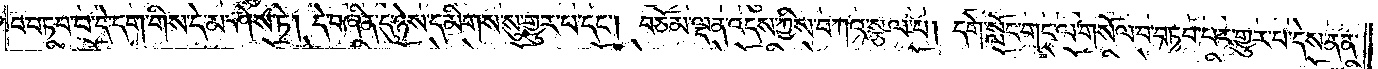བ་བཏབ་པ་དེ་དག་གིས་དེ་མ་ཤེས་ཏེ། དེ་བཞིན་དུ་ཉེས་དམིགས་སུ་གྱུར་པ་དང༌། བཅོམ་ལྡན་འདས་ཀྱིས་བཀའ་སྩལ་པ། དགེ་སློང་གང་ལ་གསོལ་བ་བཏབ་པར་གྱུར་པ་དེས་ནན་
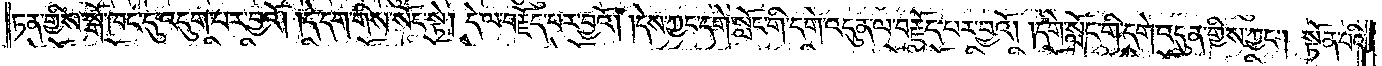ཏན་གྱིས་སྒོ་ཁང་དུ་འདུག་པར་བྱའོ། །དེ་དག་གིས་སོང་སྟེ། དེ་ལ་བརྗོད་པར་བྱའོ། །དེས་ཀྱང་དགེ་སློང་གི་དགེ་འདུན་ལ་བརྗོད་པར་བྱའོ། །དགེ་སློང་གི་དགེ་འདུན་གྱིས་ཀྱང༌། སྟོན་པའི་
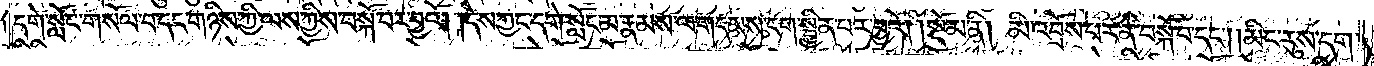དགེ་སློང་གསོལ་བ་དང་གཉིས་ཀྱི་ལས་ཀྱིས་བསྐོ་བར་བྱའོ། །དེས་ཀྱང་དགེ་སློང་མ་རྣམས་ལ་གདམས་ངག་སྦྱིན་པར་བྱའོ།    །སྡོམ་ནི། མི་འབྲོས་པར་ནི་བསྐོ་བ་དང༌། །མིང་རུས་དག་
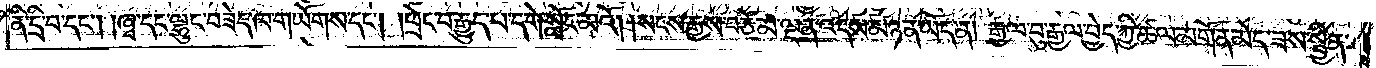ནི་དྲི་བ་དང༌། ཞྭ་དང་ལྷུང་བཟེད་ཁ་གཡོགས་དང༌། །ཕྲེང་བ་རྒྱུད་པ་དགེ་སློང་མའོ། །སངས་རྒྱས་བཅོམ་ལྡན་འདས་མཉན་ཡོད་ན། རྒྱལ་བུ་རྒྱལ་བྱེད་ཀྱི་ཚལ་མགོན་མེད་ཟས་སྦྱིན་
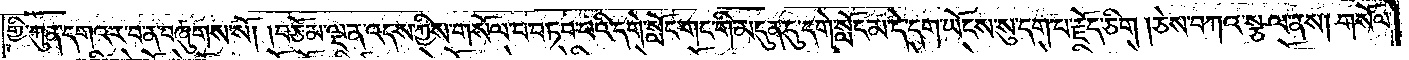གྱི་ཀུན་དགའ་ར་བ་ན་བཞུགས་སོ། །བཅོམ་ལྡན་འདས་ཀྱིས་གསོལ་བ་བཏབ་པའི་དགེ་སློང་གང་གི་མདུན་དུ་དགེ་སློང་མ་དེ་དག་ཡོངས་སུ་དག་པ་རྗོད་ཅིག །ཅེས་བཀའ་སྩལ་ནས། གསོལ་
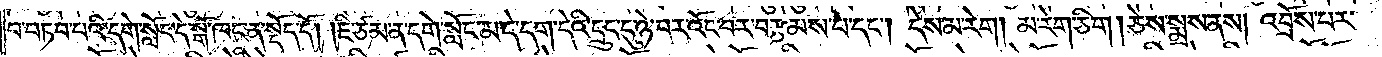བ་བཏབ་པའི་དགེ་སློང་དེ་སྒོ་ཁང་ན་སྡོད་དོ། །ཇི་ཙམ་ན་དགེ་སློང་མ་དེ་དག་དེའི་དྲུང་དུ་ཉེ་བར་འོང་བར་བརྩམས་པ་དང༌། དེས་མ་རེག །མ་རེག་ཅིག །ཅེས་སྨྲས་ནས། འབྲོས་པར་
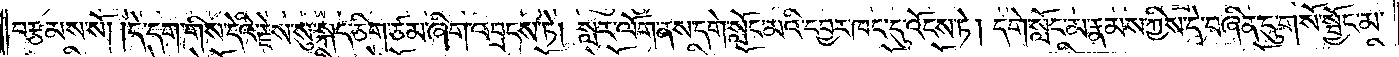བརྩམས་སོ། །དེ་དག་གིས་དེའི་རྗེས་སུ་སྐད་ཅིག་ཙམ་ཞིག་འབྲངས་ཏེ། སླར་ལོག་ནས་དགེ་སློང་མའི་དབྱར་ཁང་དུ་འོངས་ཏེ། དགེ་སློང་མ་རྣམས་ཀྱིས་དེ་བཞིན་དུ་གསོ་སྦྱོང་མ་
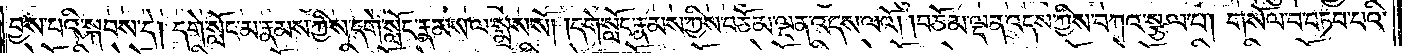བྱས་པའི་སྐབས་དེ། དགེ་སློང་མ་རྣམས་ཀྱིས་དགེ་སློང་རྣམས་ལ་སྨྲས་སོ། །དགེ་སློང་རྣམས་ཀྱིས་བཅོམ་ལྡན་འདས་ལའོ། །བཅོམ་ལྡན་འདས་ཀྱིས་བཀའ་སྩལ་པ། གསོལ་བ་བཏབ་པའི་
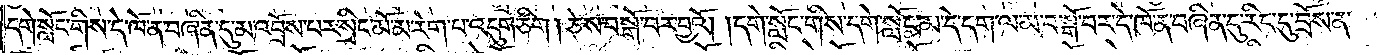དགེ་སློང་གིས་དེ་ཁོ་ན་བཞིན་དུ་མ་འབྲོས་པར་སྲིང་མོ་མ་རེག་པ་འདུག་ཅིག །ཅེས་བསྒོ་བར་བྱའོ། །དགེ་སློང་གིས་དགེ་སློང་མ་དེ་དག་ལ་མ་བསྒོ་བར་དེ་ཁོ་ན་བཞིན་དུ་རིང་དུ་བྲོས་ན་
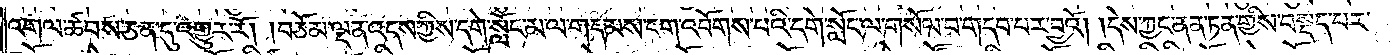འགལ་ཚབས་ཅན་དུ་འགྱུར་རོ། །བཅོམ་ལྡན་འདས་ཀྱིས་དགེ་སློང་མ་ལ་གདམས་ངག་འབོགས་པའི་དགེ་སློང་ལ་གསོལ་བ་གདབ་པར་བྱའོ། །དེས་ཀྱང་ནན་ཏན་གྱིས་བསྡད་པར་
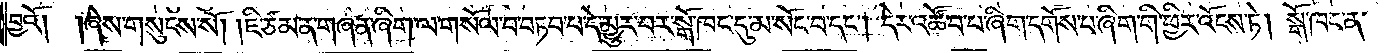བྱའོ། །ཞེས་གསུངས་སོ། །ཇི་ཙམ་ན་གཞན་ཞིག་ལ་གསོལ་བ་བཏབ་པ་དེ་མྱུར་བར་སྒོ་ཁང་དུ་མ་སོང་བ་དང༌། དེར་འཚོ་བ་པ་ཞིག་དགོས་པ་ཞིག་གི་ཕྱིར་འོངས་ཏེ། སྒོ་ཁང་ན་
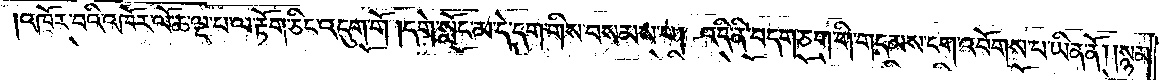འཁོར་བའི་འཁོར་ལོ་ཆ་ལྔ་པ་ལ་རྟོག་ཅིང་འདུག་གོ །དགེ་སློང་མ་དེ་དག་གིས་བསམས་པ། འདི་ནི་བདག་ཅག་གི་གདམས་ངག་འབོགས་པ་ཡིན་ནོ། །སྙམ་
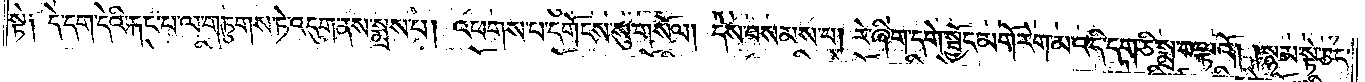སྟེ། དེ་དག་དེའི་རྐང་པ་ལ་གཏུགས་ཏེ་འདུག་ནས་སྨྲས་པ། འཕགས་པ་དགོངས་སུ་གསོལ། དེས་བསམས་པ། རེ་ཞིག་དགེ་སྦྱོང་མགོ་རེག་མ་འདི་དག་ཅི་སྨྲ་བ་ལྟའོ། །སྙམ་སྟེ་ཅང་
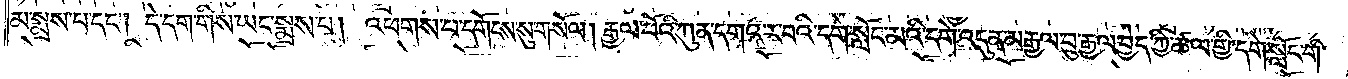མ་སྨྲས་པ་དང༌། དེ་དག་གིས་ཡང་སྨྲས་པ། འཕགས་པ་དགོངས་སུ་གསོལ། རྒྱལ་པོའི་ཀུན་དགའ་ར་བའི་དགེ་སློང་མའི་དགེ་འདུན་མ་རྒྱལ་བུ་རྒྱལ་བྱེད་ཀྱི་ཚལ་གྱི་དགེ་སློང་གི་
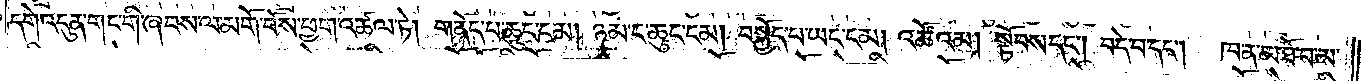དགེ་འདུན་གང་གི་ཞབས་ལ་མགོ་བོས་ཕྱག་འཚལ་ཏེ། གནོད་པ་ཆུང་ངམ། ཉམ་ང་ཆུང་ངམ། བསྐྱོད་པ་ཡང་ངམ། འཚོའམ། སྟོབས་དང༌། བདེ་བ་དང༌། ཁ་ན་མ་ཐོ་བ་མ་
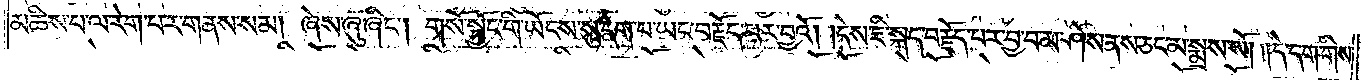མཆིས་པ་ལ་རེག་པར་གནས་སམ། ཞེས་ཞུ་ཞིང༌། གསོ་སྦྱོང་གི་ཡོངས་སུ་དག་པ་ཡང་བརྗོད་པར་བྱའོ། །དེས་ཇི་སྐད་བརྗོད་པར་བྱ་བ་མ་ཤེས་ནས་ཅང་མ་སྨྲས་སོ། །དེ་དག་གིས་
